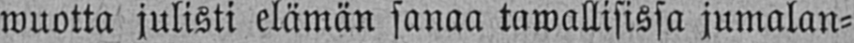wuotta julisti elämän sanaa tawallisissa jumalan-
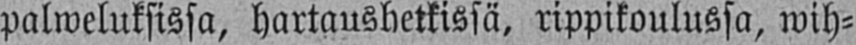palweluksissa, hartaushetkisä, rippikoulussa, wih-
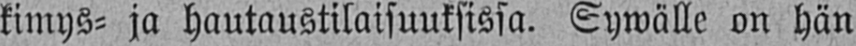kimys- ja hautaustilaisuuksissa. Sywälle on hän
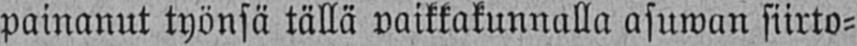painanut työnsä tällä paikkakunnalla asuwan siirto-
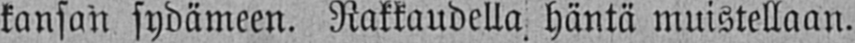kansan sydämeen. Rakkaudella häntä muistellaan.
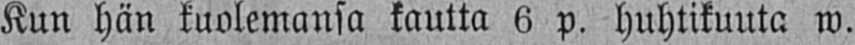Kun hän kuolemansa kautta 6 p. huhtikuuta w.
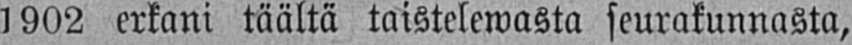1902 erkani täältä taistelewasta seurakunnasta,
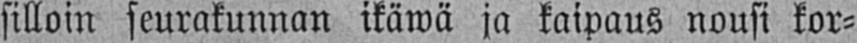silloin seurakunnan ikäwä ja kaipaus nousi kor-
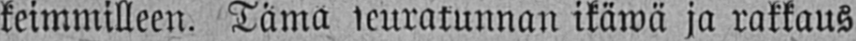keimmilleen. Tämä seurakunnan ikäwä ja rakkaus
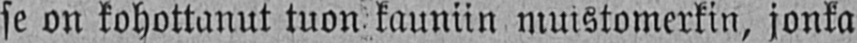se on kohottanut tuon kauniin muistomerkin, jonka
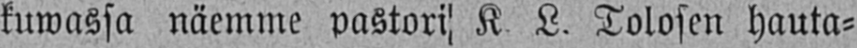kuwassa näemme pastori K. L. Tolosen hauta-
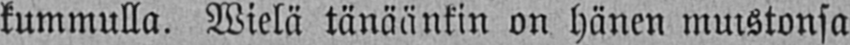kummulla. Wielä tänäänkin on hänen muistonsa
